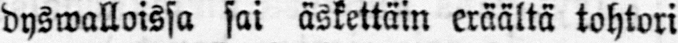dyswalloissa sai äskettäin eräältä tohtori
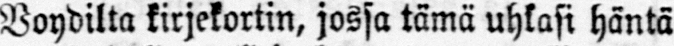Voydilta kirjekortin, jossa tämä uhkasi häntä
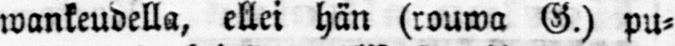wankeudella, ellei hän (rouwa G.) pu-
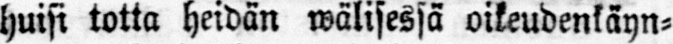huisi totta heidän wälisessä oikeudenkäyn-
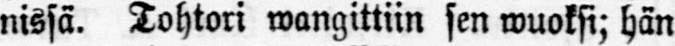nissä. Tohtori wangittiin sen wuoksi; hän
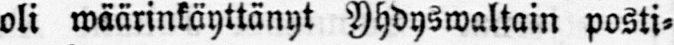oli wäärinkäyttänyt Yhdyswaltain posti-
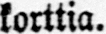korttia.
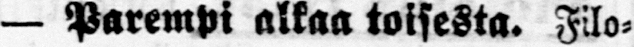— Parempi alkaa toisesta. Filo-
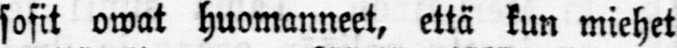sofit owat huomanneet, että kun miehet
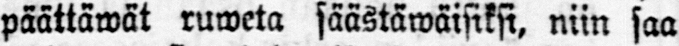päättäwät ruweta säästäwäisiksi, niin saa
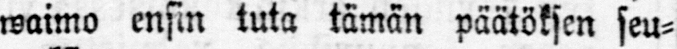waimo ensin tuta tämän päätöksen seu-
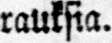rauksia.
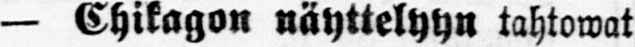— Chikagon näyttelyyn tahtowat
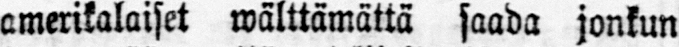amerikalaiset wälttämättä saada jonkun
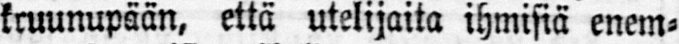kruunupään, että utelijaita ihmisiä enem-
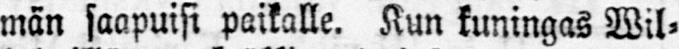män saapuisi paikalle. Kun kuningas Wil-
